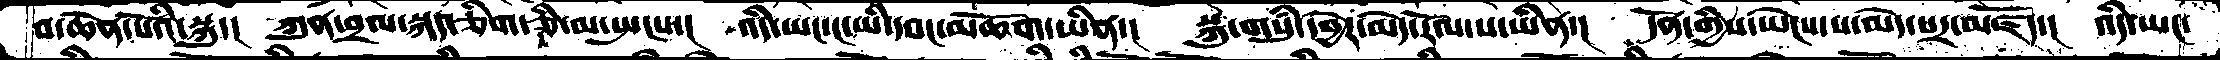བ་ཆེན་པོའི་སྐུ་།  ཀུན་བྲལ་སྐད་ཅིག་ཅི་མ་སྤངས་།  འདི་ཡང་ང་ཡི་དབང་མཆོག་ཡིན་།  སྐུ་གསུཾ་དབྱེར་མེད་རོལ་པ་ཡིན་།  དོན་གྱིས་ཡེངས་ས་མེད་པར་མཛོད་།  འདི་ཡང་
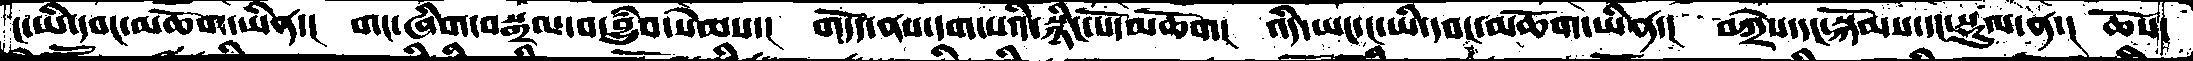ང་ཡི་དབང་མཆོག་ཡིན་།  གང་ཞིག་བསྒྲལ་བ་བྱུཾབ་སེམས་།  གདོད་ནས་དག་པའི་སྙིང་པོ་མཆོག།  འདི་ཡང་ང་ཡི་དབང་མཆོག་ཡིན་།  བཀྲེས་དང་སྐོམ་དང་སྡུལ་ན་།  ཆོས་
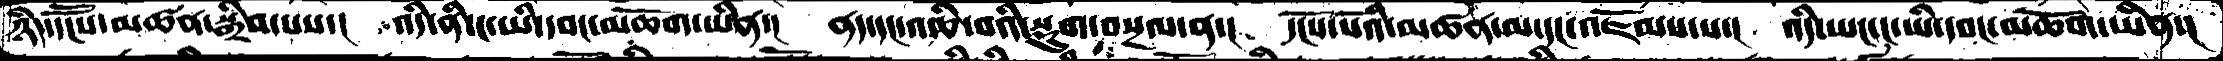ཉིད་དངཽས་མཚན་སྒྲིབ་པས་།  འདི་ནི་ང་ཡི་དབང་མཆོག་ཡིན་།  ནད་དང་འཆི་བའི་སྡུག་བསྔལ་ན་།  དངོས་པོའི་མཚན་མ་དང་འཇོམས་པ་།  འདི་ཡང་ང་ཡི་དབང་མཆོག་ཡིན་།
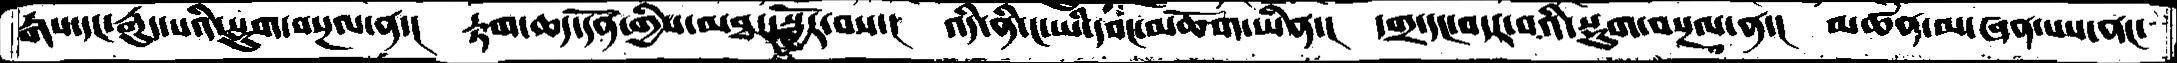རྒས་དང་རྒྱུད་པའི་སྡུག་བསྔལ་ན་།  རྟག་ཆད་དོན་གྱིས་མཐར་སྦྱོར་བས་།  འདི་ནི་ང་ཡི་དབང་མཆོག་ཡིན་།  དགྲ་དང་བདར་བའི་སྡུག་བསྔལ་ན་།  མཚན་མ་ཞན་པས་ནང་
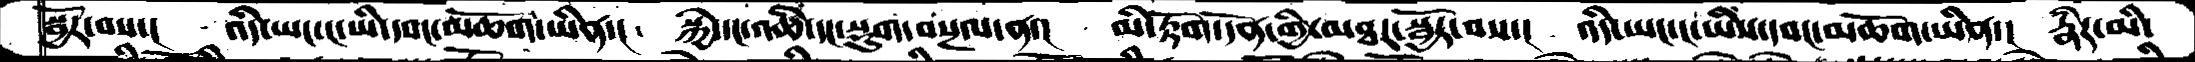སྦྱོར་བས་།  འདི་ཡང་ང་ཡི་དབང་མཆོག་ཡིན་།  སྐྱེ་དང་འཆི་དང་སྡུག་བསྔལ་ན་།  མི་རྟོག་དོན་གྱི་མཐར་སྦྱོར་བས་།  འདི་ཡང་ང་ཡིས་དབང་མཆོག་ཡིན་།  རྣཾར་མི་
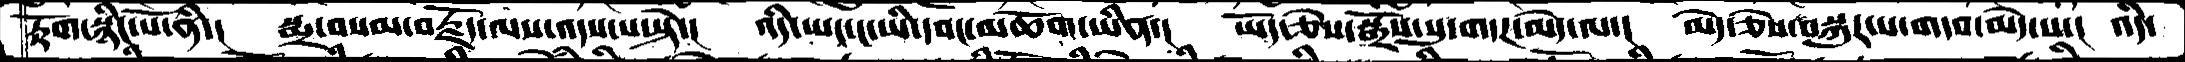རྟོག་སྙིང་པོ་ནི་།  སྨྲ་བསམ་བརྗོད་ལས་འདས་པ་སྟེ་།  འདི་ཡང་ང་ཡི་དབང་མཆོག་ཡིན་།  ཡོད་ཅེས་སྒྲོས་སུ་གདཌ་མེད་ལ་།  མེད་ཅེས་བསྐུར་པ་གདབ་མེད་པ་།  འདི་
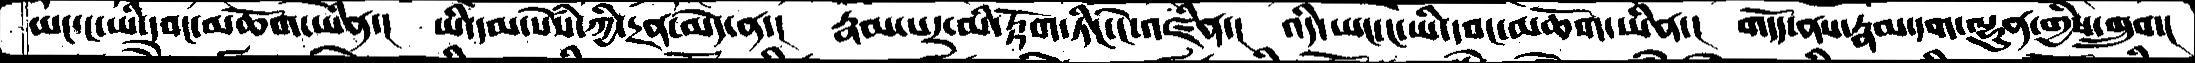ཡང་ང་ཡི་དབང་མཆོག་ཡིན་།  ཡི་དམ་སེཾས་ཀྱི་དྲན་མེད་ན་།  རྣམ་པར་མི་རྟོག་ཏིང་ངེ་འཛིན་།  འདི་ཡང་ང་ཡི་དབང་མཆོག་ཡིན་།  གདོད་ནས་རྣམ་དག་ལྷུན་གྱིས་གྲུབ་།
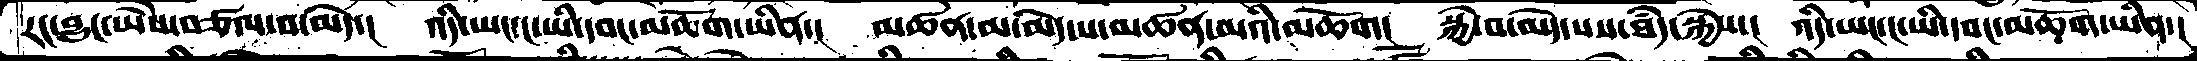རང་བྱུང་ཡཻས་བཙལ་བ་མེད་།  འདི་ཡང་ང་ཡི་དབང་མཆོག་ཡིན་།  མཚན་མ་མེད་པ་མཚན་མའི་མཆོག།  སྐྱེ་བ་མེད་པས་ཐཾད་སྐྱེས་།  འདི་ཡང་ང་ཡི་དབང་མཆོག་ཡིན་།
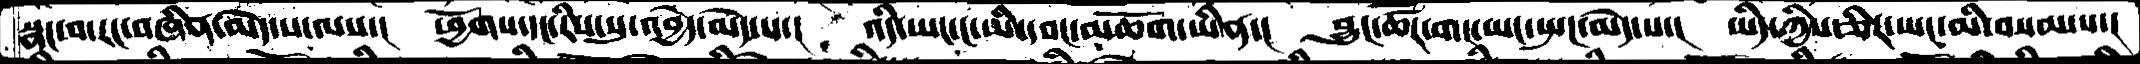སྣང་བ་རང་བཞིན་མེད་པ་ལས་།  ཕྱོགས་དང་རིས་སུ་འབྱེད་མེད་པ་།  འདི་ཡང་ང་ཡི་དབང་མཆོག་ཡིན་།  བྱུང་ཚོར་གང་ཡང་སྤང་མེད་པ་།  ཡིད་ཀྱིས་ཅིར་ཡང་མི་བསམ་པ་།
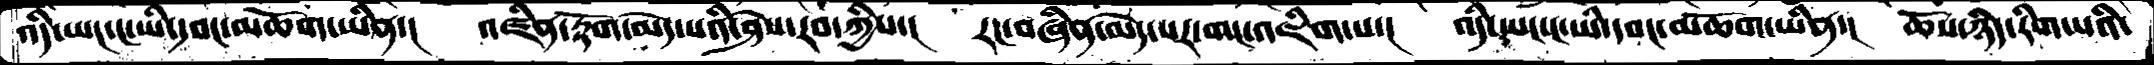འདི་ཡང་ང་ཡི་དབང་མཆོག་ཡིན་།  འཛིན་རྟོག་མེད་པའི་ཤེས་རབ་ཀྱིས་།  རང་བཞིན་མེད་པར་གང་འཇིག་པ་།  འདི་ཡང་ང་ཡི་དབང་མཆོག་ཡིན་།  ཆོས་ཉིད་རིག་པའི་
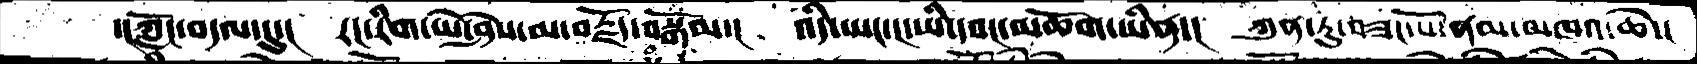་།ཀློང་བདལ་དུ་།  རང་རིག་ཡེ་ཤེས་མ་བརྗོད་བསྒོམ་།  འདི་ཡང་ང་ཡི་དབང་མཆོག་ཡིན་།  ཀུན་ཏུ་བཟང་པོ་ནམ་མཁའ་ཆེ་།
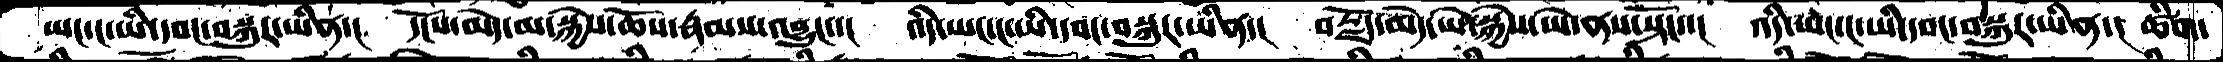ཡང་ང་ཡི་དབང་བསྐུར་ཡིན་།།  དངོས་མེད་མ་སྐྱེས་ཆོས་རྣམས་འབྱུང་་།  འདི་ཡང་ང་ཡི་དབང་བསྐུར་ཡིན་།  བརྗོད་མེད་ཡེ་སྐྱེས་ཡེ་ནས་སྟོང་་།  འདི་ཡང་ང་ཡི་དབང་བསྐུར་ཡིན་།  ཚིག་
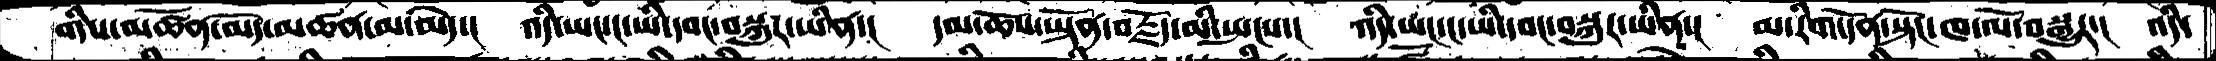གིས་མཚོན་མེད་མཚན་མ་མེད་།  འདི་ཡང་ང་ཡི་དབང་བསྐུར་ཡིན་།  དམ་ཆོས་ཡྟོན་བརྗོད་མི་སྤངས་།  འདི་ཡང་ང་ཡི་དབང་བསྐུར་ཡིན་།  མ་རིག་དོན་སྟོང་ཁ་ལོ་བསྒྱུར་།  འདི་
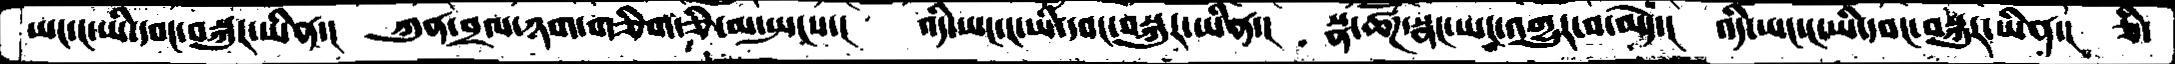ཡང་ང་ཡི་དབང་བསྐུར་ཡིན་།  ཀུན་བྲལ་ཉག་གཅིག་ཅི་མ་སྤངས་།  འདི་ཡང་ང་ཡི་དབང་བསྐུར་ཡིན་།  སྣ་ཚོཌ་སྣང་ཡང་འགྱུར་བ་མེད་།  འདི་ཡང་ང་ཡི་དབང་བསྐུར་ཡིན་།  ཅི་
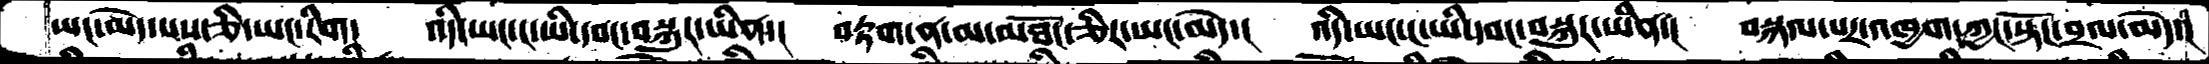ཡང་མེད་པས་ཅི་ཡང་རིག།  འདི་ཡང་ང་ཡི་དབང་བསྐུར་ཡིན་།  བརྟག་ན་མ་མཐོང་ཅིར་ཡང་མེད་།  འདི་ཡང་ང་ཡི་དབང་བསྐུར་ཡིན་།  བསྐལ་པར་འཁྱག་ཀྱང་སྟོང་བྲལ་མེད་།
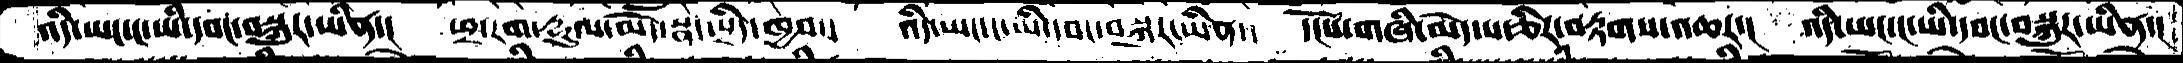འདི་ཡང་ང་ཡི་དབང་བསྐུར་ཡིན་།  ཕྲ་རག་རྡུལ་མེད་སྣང་སྲིདཁྱབ་།  འདི་ཡང་ང་ཡི་དབང་བསྐུར་ཡིན་།  དངོས་གཞི་མེད་པ་ཅིར་བརྟགས་འཆར་།  འདི་ཡང་ང་ཡི་དབང་བསྐུར་ཡིན་།
